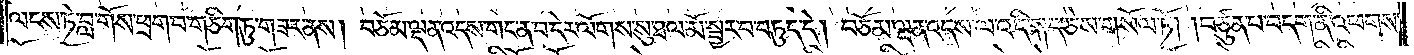ལངས་ཏེ་བླ་གོས་ཕྲག་བ་གཅིག་ཏུ་གཟར་ནས། བཅོམ་ལྡན་འདས་གང་ན་བ་དེར་ལོགས་སུ་ཐལ་མོ་སྦྱར་བ་བཏུད་དེ། བཅོམ་ལྡན་འདས་ལ་འདི་སྐད་ཅེས་གསོལ་ཏོ། །བཙུན་པ་བདག་ནི་འཕགས་
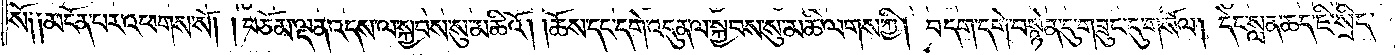སོ༑ ༑མངོན་པར་འཕགས་སོ། །བཅོམ་ལྡན་འདས་ལ་སྐྱབས་སུ་མཆིའོ། །ཆོས་དང་དགེ་འདུན་ལ་སྐྱབས་སུ་མཆི་ལགས་ཀྱི། བདག་དགེ་བསྙེན་དུ་གཟུང་དུ་གསོལ། དེང་སླན་ཆད་ཇི་སྲིད་
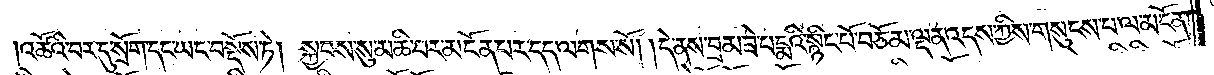འཚོའི་བར་དུ་སྲོག་དང་ཡང་བསྡོས་ཏེ། སྐྱབས་སུ་མཆི་བར་མངོན་པར་དད་ལགས་སོ། །དེ་ནས་བྲམ་ཟེ་པདྨའི་སྙིང་པོ་བཅོམ་ལྡན་འདས་ཀྱིས་གསུངས་པ་ལ་མངོན་
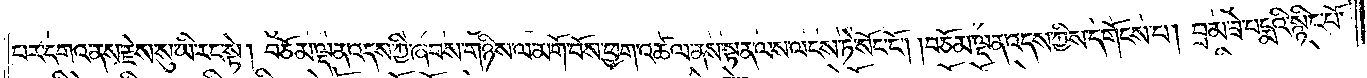པར་དགའ་ནས་རྗེས་སུ་ཡི་རང་སྟེ། བཅོམ་ལྡན་འདས་ཀྱི་ཞབས་གཉིས་ལ་མགོ་བོས་ཕྱག་འཚལ་ནས་སྟན་ལས་ལངས་ཏེ་སོང་ངོ༌། །བཅོམ་ལྡན་འདས་ཀྱིས་དགོངས་པ། བྲམ་ཟེ་པདྨའི་སྙིང་པོ་
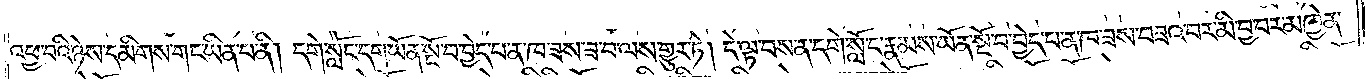འཕྱ་བའི་ཉེས་དམིགས་གང་ཡིན་པ་ནི། དགེ་སློང་དག་ཡོན་སྔོ་བ་བྱེད་པ་ན་ཁ་ཟས་ཟ་བ་ལས་གྱུར་ཏེ། དེ་ལྟ་བས་ན་དགེ་སློང་རྣམས་ཡོན་སྔོ་བ་བྱེད་པ་ན་ཁ་ཟས་བཟའ་བར་མི་བྱ་བ་མཁྱེན་
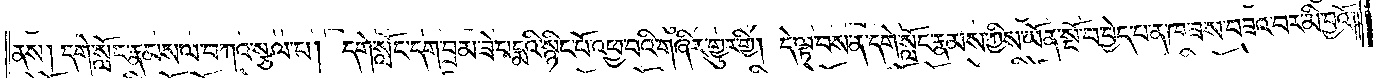ནས། དགེ་སློང་རྣམས་ལ་བཀའ་སྩལ་པ། དགེ་སློང་དག་བྲམ་ཟེ་པདྨའི་སྙིང་པོ་འཕྱ་བའི་གཞིར་གྱུར་གྱི། དེ་ལྟ་བས་ན་དགེ་སློང་རྣམས་ཀྱིས་ཡོན་སྔོ་བ་བྱེད་པ་ན་ཁ་ཟས་བཟའ་བར་མི་བྱའོ༎
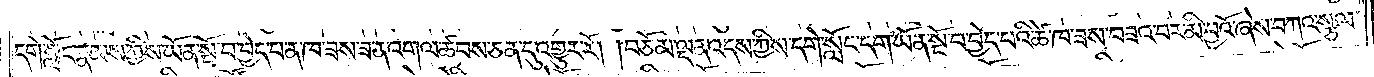དགེ་སློང་རྣམས་ཀྱིས་ཡོན་སྔོ་བ་བྱེད་པ་ན་ཁ་ཟས་ཟན་འགལ་ཚབས་ཅན་དུ་འགྱུར་རོ། །བཅོམ་ལྡན་འདས་ཀྱིས་དགེ་སློང་དག་ཡོན་སྔོ་བ་བྱེད་པའི་ཚེ་ཁ་ཟས་བཟའ་བར་མི་བྱའོ་ཞེས་བཀའ་སྩལ་
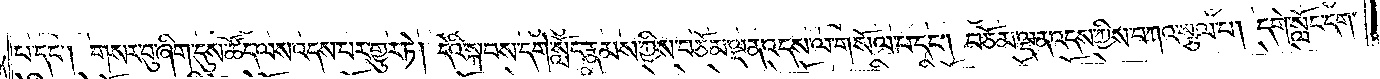པ་དང༌། གསར་བུ་ཞིག་དུས་ཚོད་ལས་འདས་པར་གྱུར་ཏེ། དེའི་སྐབས་དགེ་སློང་རྣམས་ཀྱིས་བཅོམ་ལྡན་འདས་ལ་གསོལ་པ་དང༌། བཅོམ་ལྡན་འདས་ཀྱིས་བཀའ་སྩལ་པ། དགེ་སློང་དག་
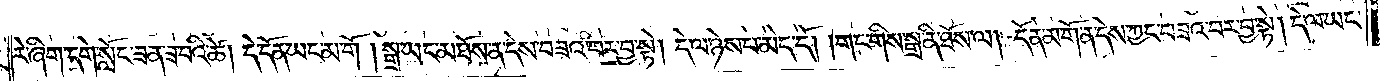རེ་ཞིག་དགེ་སློང་ཟན་ཟ་བའི་ཚེ། དེ་དོན་ཡང་མ་གོ །སྒྲ་ཡང་མ་ཐོས་ན་དེས་བཟའ་བར་བྱ་སྟེ། དེ་ལ་ཉེས་པ་མེད་དོ། །གང་གིས་སྒྲ་ནི་ཐོས་ལ། དོན་མགོ་ན་དེས་ཀྱང་བཟའ་བར་བྱ་སྟེ། དེ་ལ་ཡང་
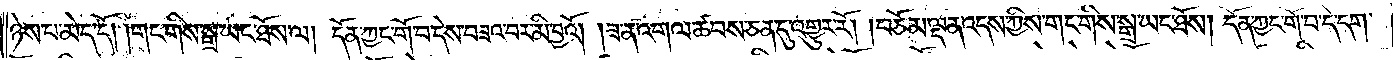ཉེས་པ་མེད་དོ། །གང་གིས་སྒྲ་ཡང་ཐོས་ལ། དོན་ཀྱང་གོ་བ་དེས་བཟའ་བར་མི་བྱའོ། །ཟ་ན་འགལ་ཚབས་ཅན་དུ་འགྱུར་རོ། །བཅོམ་ལྡན་འདས་ཀྱིས་གང་གིས་སྒྲ་ཡང་ཐོས། དོན་ཀྱང་གོ་བ་དེ་དག་
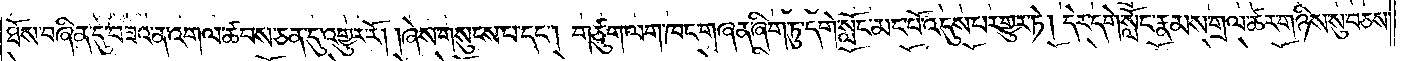ཐོས་བཞིན་དུ་བཟའ་ན་འགལ་ཚབས་ཅན་དུ་འགྱུར་རོ། །ཞེས་གསུངས་པ་དང༌། གཙུག་ལག་ཁང་གཞན་ཞིག་ཏུ་དགེ་སློང་མང་པོ་འདུས་པར་གྱུར་ཏེ། དེར་དགེ་སློང་རྣམས་གྲལ་ཚར་གཉིས་སུ་བཅས་
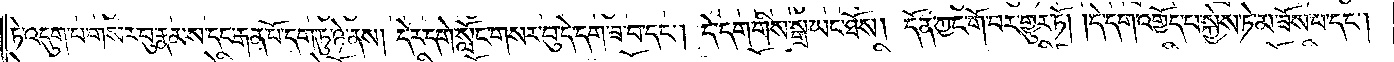ཏེ་འདུག་པ་གསར་བུ་རྣམས་དང་རྒན་པོ་དག་ཏུ་ཉེ་ནས། དེར་དགེ་སློང་གསར་བུ་དེ་དག་ཟ་བ་དང༌། དེ་དག་གིས་གྲ་ཡང་ཐོས། དོན་ཀྱང་གོ་བར་གྱུར་ཏོ། །དེ་དག་འགྱོད་པ་སྐྱེས་ཏེ་མ་ཟོས་པ་དང༌།
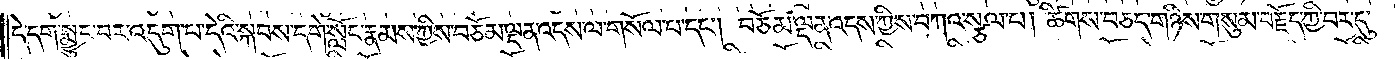དེ་དག་སྨྱུང་བར་འདུག་པ་དེའི་སྐབས་དགེ་སློང་རྣམས་ཀྱིས་བཅོམ་ལྡན་འདས་ལ་གསོལ་པ་དང༌། བཅོམ་ལྡན་འདས་ཀྱིས་བཀའ་སྩལ་པ། ཚིགས་བཅད་གཉིས་གསུམ་བརྗོད་ཀྱི་བར་དུ་
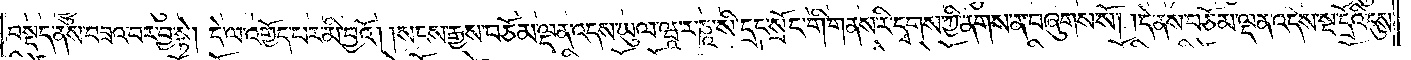བསྡད་ནས་བཟའ་བར་བྱ་སྟེ། དེ་ལ་འགྱོད་པར་མི་བྱའོ། །སངས་རྒྱས་བཅོམ་ལྡན་འདས་ཡུལ་ཝཱ་ར་ཎཱ་སི་དྲང་སྲོང་གི་གནས་རི་དྭགས་ཀྱི་ནགས་ན་བཞུགས་སོ། །དེ་ནས་བཅོམ་ལྡན་འདས་སྔ་དྲོའི་དུས་
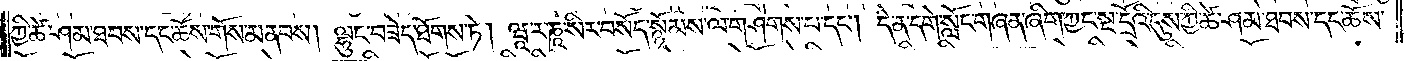ཀྱི་ཚེ་ཤམ་ཐབས་དང་ཆོས་གོས་མནབས། ལྷུང་བཟེད་ཐོགས་ཏེ། ཝཱ་ར་ཎཱ་སིར་བསོད་སྙོམས་ལ་གཤེགས་པ་དང༌། དེ་ན་དགེ་སློང་གཞན་ཞིག་ཀྱང་སྔ་དྲོའི་དུས་ཀྱི་ཚེ་ཤམ་ཐབས་དང་ཆོས་
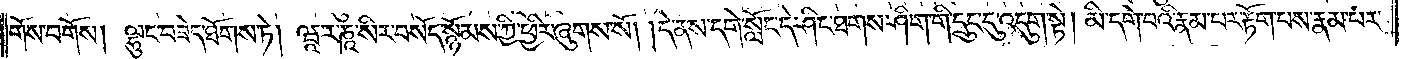གོས་བགོས། ལྷུང་བཟེད་ཐོགས་ཏེ། ཝཱ་ར་ཎཱ་སིར་བསོད་སྙོམས་ཀྱི་ཕྱིར་ཞུགས་སོ། །དེ་ནས་དགེ་སློང་དེ་ཤིང་ཐགས་ཤིག་གི་དྲུང་དུ་འདུག་སྟེ། མི་དགེ་བའི་རྣམ་པར་རྟོག་པས་རྣམ་པར་
